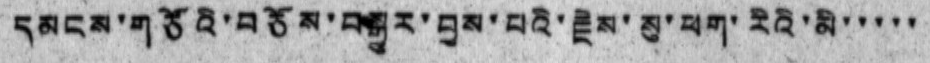དམངས་གཙོའི་བཅོས་བསྒྱུར་བྱས་པའི་རྗེས་སུ་ཕག་རིའི་མི་་་་་
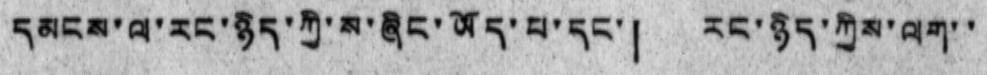དམངས་ལ་རང་ཉིད་ཀྱི་ས་ཞིང་ཡོད་པ་དང་། རང་ཉིད་ཀྱིས་ལག་་
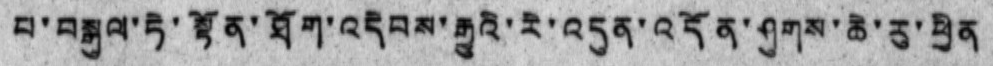པ་བསྒུལ་ཏེ་སྟོན་ཐོག་འདེབས་རྒྱུའི་རེ་འདུན་འདོན་ཤུགས་ཆེ་རུ་ཕྱིན
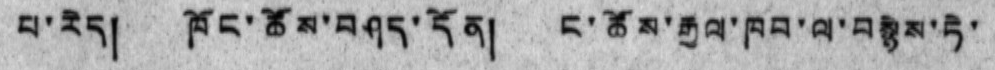པ་རེད། ཁོང་ཚོས་བཤད་དོན། ང་ཚོས་རྒྱལ་ཁབ་ལ་བསྙེས་ཏེ་
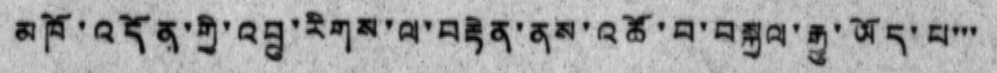མཁོ་འདོན་གྱི་འབྲུ་རིགས་ལ་བརྟེན་ནས་འཚོ་བ་བསྐྱལ་རྒྱུ་ཡོད་པ་་་
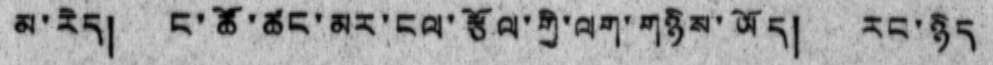མ་རེད། ང་ཚོ་ཚང་མར་ངལ་རྩོལ་གྱི་ལག་གཉིས་ཡོད། རང་ཉིད
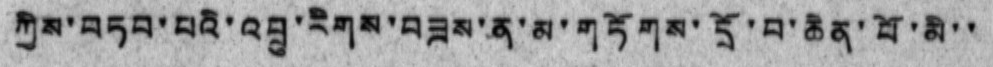ཀྱིས་བཏབ་པའི་འབྲུ་རིགས་བཟས་ན་མ་གཏོགས་དྲོ་བ་ཆེན་པོ་མི་་
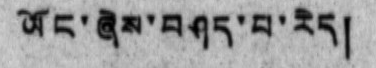ཡོང་ཞེས་བཤད་བ་རེད།
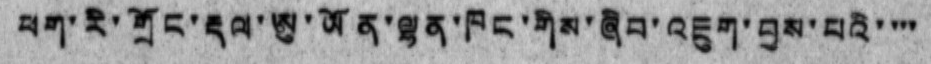ཕག་རི་གྲོང་རྡལ་ཨུ་ཡོན་ལྷན་ཁང་གིས་ཞིབ་འཇུག་བྱས་པའི་་་་
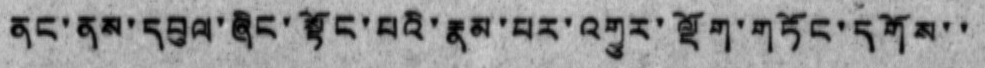ནང་ནས་དབུལ་ཞིང་སྟོང་པའི་རྣམ་པར་འགྱུར་ལྡོག་གཏོང་དགོས་་
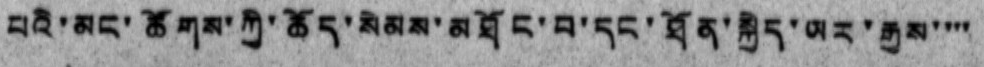པའི་མང་ཚོགས་ཀྱི་ཚོད་སེམས་མཐོང་བ་དང་ཐོན་སྐྱེད་ཡར་རྒྱས་་་་
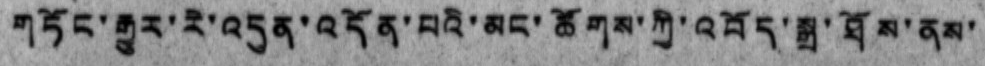གཏོང་རྒྱུར་རེ་འདུན་འདོན་པའི་མང་ཚོགས་ཀྱི་འབོད་སྒྲ་ཐོས་ནས་
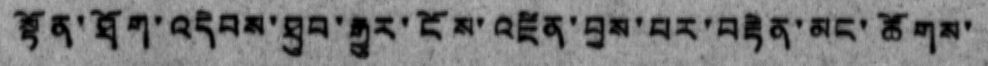སྟོན་ཐོག་འདེབས་ཐུབ་རྒྱུར་ངོས་འཛིན་བྱས་པར་བརྟེན་མང་ཚོགས་
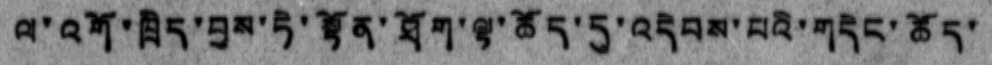ལ་འགོ་ཁྲིད་བྱས་ཏེ་སྟོན་ཐོག་ལྟ་ཚོད་དུ་འདེབས་པའི་གདེང་ཚོད་
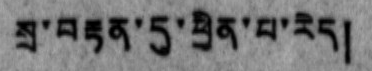སྲ་བརྟན་དུ་ཕྱིན་པ་རེད།
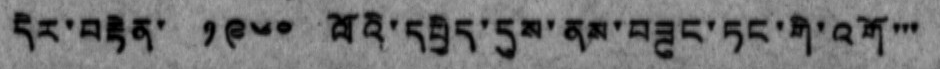དེར་བརྟེན་ ༡༩༦༠ ལོའི་དཔྱིད་དུས་ནམ་བཟུང་ཏང་གི་འགོ་་་
